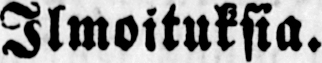Ilmoituksia.
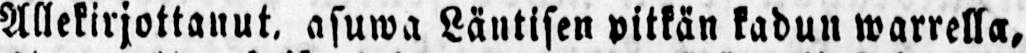Allekirjottanut, asuwa Läntisen pitkän kadun warrella,
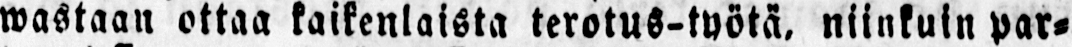wastaan ottaa kaikenlaista terotus-työtä, niinkuin par-
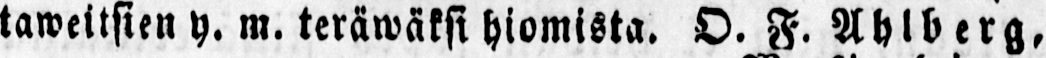taweitsien y. m. teräwäksi hiomista. O. F. Ahlberg,
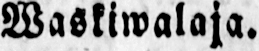Waskiwalaja.
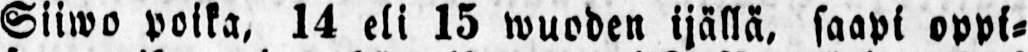Siiwo poika, 14 eli 15 wuoden ijällä, saapi oppi-
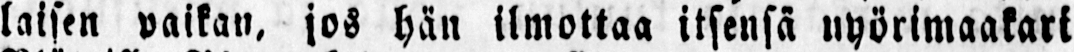laisen paikan, jos hän ilmottaa itsensä nyörimaakari
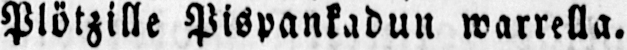Plötzille Pispankadun warrella.
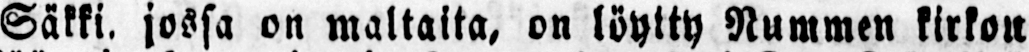Säkki, jossa on maltaita, on löytty Nummen kirkon
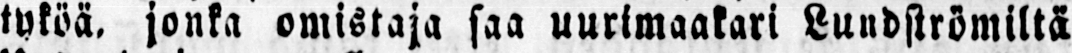tyköä, jonka omistaja saa uurimaakari Lundtrömiltä
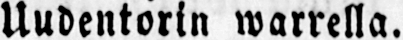Uudentorin warrella.
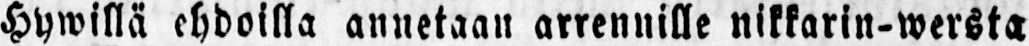Hywillä ehdoilla annetaan arrennille nikkarin-wersta
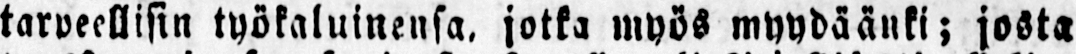tarpeellisin työkaluinensa, jotka myös myydäänki; josta
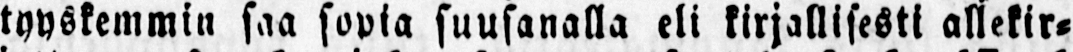tyyskemmin saa sopia suusanalla eli kirjallisesti allekir-
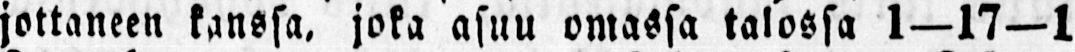jottaneen kanssa, joka asuu omassa talossa 1—17—1
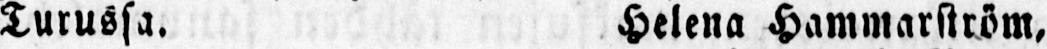Turussa. Helena Hammarström,
